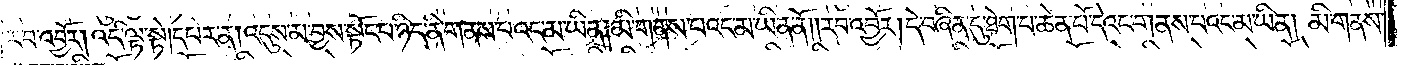རབ་འབྱོར། འདི་ལྟ་སྟེ། དཔེར་ན། འདུས་མ་བྱས་སྟོང་པ་ཉིད་ནི་གནས་པའང་མ་ཡིན། མི་གནས་པའང་མ་ཡིན་ནོ། །རབ་འབྱོར། དེ་བཞིན་དུ་ཐེག་པ་ཆེན་པོ་དེའང་གནས་པའང་མ་ཡིན། མི་གནས་
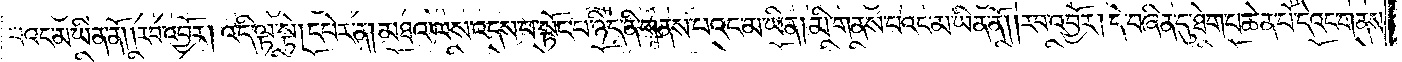པའང་མ་ཡིན་ནོ། །རབ་འབྱོར། འདི་ལྟ་སྟེ། དཔེར་ན། མཐའ་ལས་འདས་པ་སྟོང་པ་ཉིད་ནི་གནས་པའང་མ་ཡིན། མི་གནས་པའང་མ་ཡིན་ནོ། །རབ་འབྱོར། དེ་བཞིན་དུ་ཐེག་པ་ཆེན་པོ་དེའང་གནས་
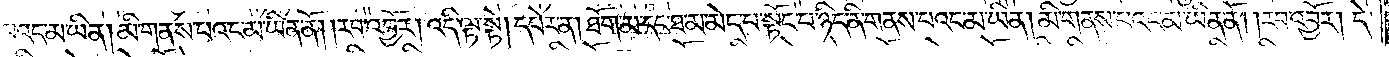པའང་མ་ཡིན། མི་གནས་པའང་མ་ཡིན་ནོ། །རབ་འབྱོར། འདི་ལྟ་སྟེ། དཔེར་ན། ཐོག་མ་དང་ཐ་མ་མེད་པ་སྟོང་པ་ཉིད་ནི་གནས་པའང་མ་ཡིན། མི་གནས་པའང་མ་ཡིན་ནོ། །རབ་འབྱོར། དེ་
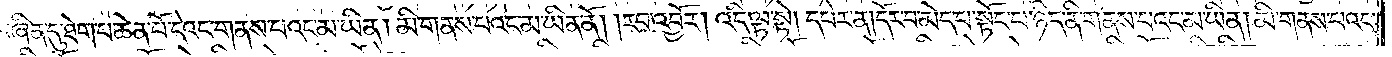བཞིན་དུ་ཐེག་པ་ཆེན་པོ་དེའང་གནས་པའང་མ་ཡིན། མི་གནས་པའང་མ་ཡིན་ནོ། །རབ་འབྱོར། འདི་ལྟ་སྟེ། དཔེར་ན། དོར་བ་མེད་པ་སྟོང་པ་ཉིད་ནི་གནས་པའང་མ་ཡིན། མི་གནས་པའང་
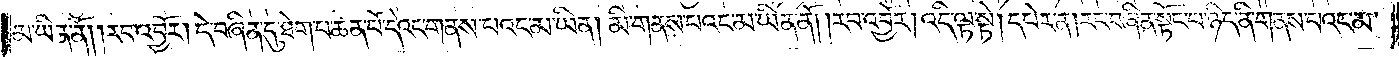མ་ཡིན་ནོ། །རབ་འབྱོར། དེ་བཞིན་དུ་ཐེག་པ་ཆེན་པོ་དེའང་གནས་པའང་མ་ཡིན་མི་གནས་པའང་མ་ཡིན་ནོ། །རབ་འབྱོར། འདི་ལྟ་སྟེ། དཔེར་ན། རང་བཞིན་སྟོང་པ་ཉིད་ནི་གནས་པའང་མ་
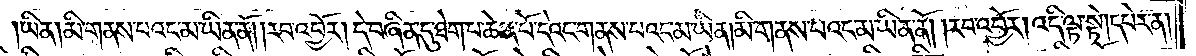ཡིན། མི་གནས་པའང་མ་ཡིན་ནོ། །རབ་འབྱོར། དེ་བཞིན་དུ་ཐེག་པ་ཆེན་པོ་དེའང་གནས་པའང་མ་ཡིན། མི་གནས་པའང་མ་ཡིན་ནོ། །རབ་འབྱོར། འདི་ལྟ་སྟེ། དཔེར་ན།
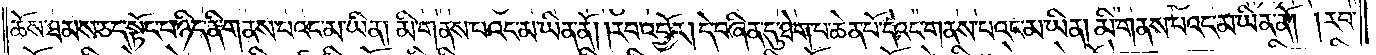ཆོས་ཐམས་ཅད་སྟོང་པ་ཉིད་ནི་གནས་པའང་མ་ཡིན། མི་གནས་པའང་མ་ཡིན་ནོ། །རབ་འབྱོར། དེ་བཞིན་དུ་ཐེག་པ་ཆེན་པོ་དེའང་གནས་པའང་མ་ཡིན། མི་གནས་པའང་མ་ཡིན་ནོ། །རབ་
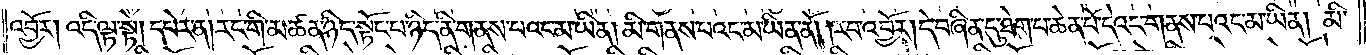འབྱོར། འདི་ལྟ་སྟེ། དཔེར་ན། རང་གི་མཚན་ཉིད་སྟོང་པ་ཉིད་ནི་གནས་པའང་མ་ཡིན། མི་གནས་པའང་མ་ཡིན་ནོ། །རབ་འབྱོར། དེ་བཞིན་དུ་ཐེག་པ་ཆེན་པོ་དེའང་གནས་པའང་མ་ཡིན། མི་
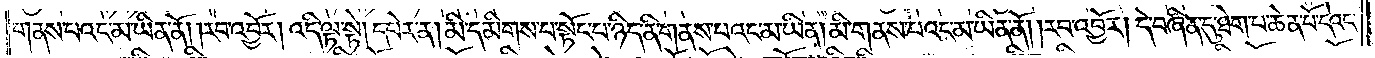གནས་པའང་མ་ཡིན་ནོ། །རབ་འབྱོར། འདི་ལྟ་སྟེ། དཔེར་ན། མི་དམིགས་པ་སྟོང་པ་ཉིད་ནི་གནས་པའང་མ་ཡིན། མི་གནས་པའང་མ་ཡིན་ནོ། །རབ་འབྱོར། དེ་བཞིན་དུ་ཐེག་པ་ཆེན་པོ་དེའང་
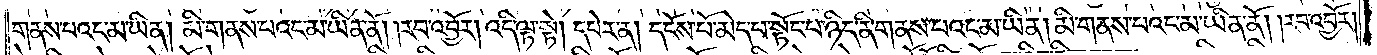གནས་པའང་མ་ཡིན། མི་གནས་པའང་མ་ཡིན་ནོ། །རབ་འབྱོར། འདི་ལྟ་སྟེ། དཔེར་ན། དངོས་པོ་མེད་པ་སྟོང་པ་ཉིད་ནི་གནས་པའང་མ་ཡིན། མི་གནས་པའང་མ་ཡིན་ནོ། །རབ་འབྱོར།
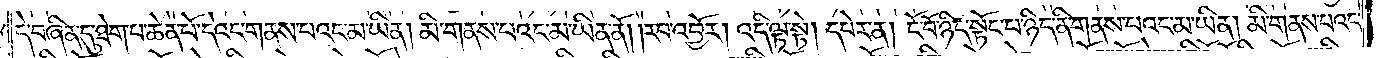དེ་བཞིན་དུ་ཐེག་པ་ཆེན་པོ་དེའང་གནས་པའང་མ་ཡིན། མི་གནས་པའང་མ་ཡིན་ནོ། །རབ་འབྱོར། འདི་ལྟ་སྟེ། དཔེར་ན། ངོ་བོ་ཉིད་སྟོང་པ་ཉིད་གནས་པའང་མ་ཡིན། མི་གནས་པའང་
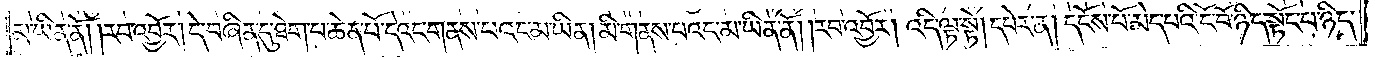མ་ཡིན་ནོ། །རབ་འབྱོར། དེ་བཞིན་དུ་ཐེག་པ་ཆེན་པོ་དེའང་གནས་པའང་མ་ཡིན། མི་གནས་པའང་མ་ཡིན་ནོ། །རབ་འབྱོར། འདི་ལྟ་སྟེ། དཔེར་ན། དངོས་པོ་མེད་པའི་ངོ་བོ་ཉིད་སྟོང་པ་ཉིད་
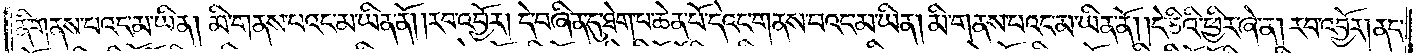ནི་གནས་པའང་མ་ཡིན། མི་གནས་པའང་མ་ཡིན་ནོ། །རབ་འབྱོར། དེ་བཞིན་དུ་ཐེག་པ་ཆེན་པོ་དེའང་གནས་པའང་མ་ཡིན། མི་གནས་པའང་མ་ཡིན་ནོ། །དེ་ཅིའི་ཕྱིར་ཞེ་ན། རབ་འབྱོར། ནང་
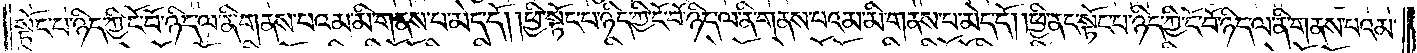སྟོང་པ་ཉིད་ཀྱི་ངོ་བོ་ཉིད་ལ་ནི་གནས་པའམ་མི་གནས་པ་མེད་དོ། །ཕྱི་སྟོང་པ་ཉིད་ཀྱི་ངོ་བོ་ཉིད་ལ་ནི་གནས་པའམ་མི་གནས་པ་མེད་དོ། །ཕྱི་ནང་སྟོང་པ་ཉིད་ཀྱི་ངོ་བོ་ཉིད་ལ་ནི་གནས་པའམ་
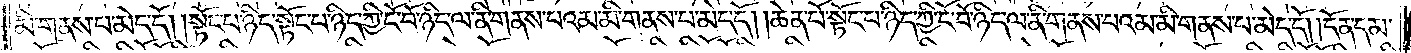མི་གནས་པ་མེད་དོ། །སྟོང་པ་ཉིད་སྟོང་པ་ཉིད་ཀྱི་ངོ་བོ་ཉིད་ལ་ནི་གནས་པའམ་མི་གནས་པ་མེད་དོ། །ཆེན་པོ་སྟོང་པ་ཉིད་ཀྱི་ངོ་བོ་ཉིད་ལ་ནི་གནས་པའམ་མི་གནས་པ་མེད་དོ། །དོན་དམ་
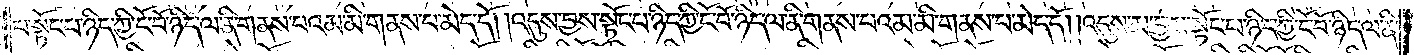པ་སྟོང་པ་ཉིད་ཀྱི་ངོ་བོ་ཉིད་ལ་ནི་གནས་པའམ་མི་གནས་པ་མེད་དོ། །འདུས་བྱས་སྟོང་པ་ཉིད་ཀྱི་ངོ་བོ་ཉིད་ལ་ནི་གནས་པའམ་མི་གནས་པ་མེད་དོ། །འདུས་མ་བྱས་སྟོང་པ་ཉིད་ཀྱི་ངོ་བོ་ཉིད་ལ་ནི་
